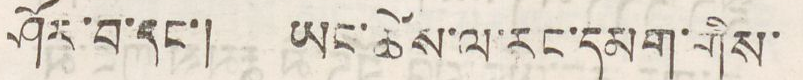ཤོར་བ་དང་། ཡང་ཚེས་ལ་རང་དམག་གིས་
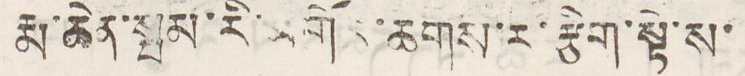རྨ་ཆེན་སྦམ་རི་མགོར་ཆགས་ར་རྩིག་སྟེ་ས་
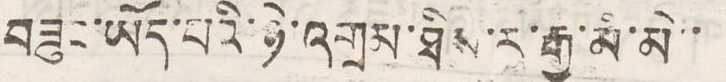བཟུང་ཡོད་པའི་ཉེ་འགྲམ་ཐིས་ར་རྒྱ་མི་མེ་
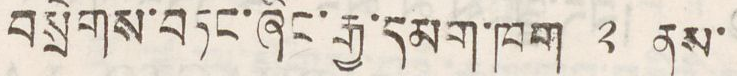བསྲེགས་བཏང་ཞིང་རྒྱ་དམག་ཁག་ ༢ ནས་
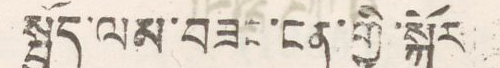སྤྱོད་ལམ་བཟང་ངན་གྱི་སྐོར
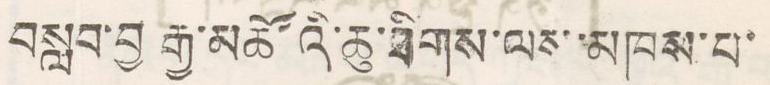བསླབ་བྱ རྒྱ་མཚོའི་ཆུ་ཐིགས་ལས་མཁས་པ་
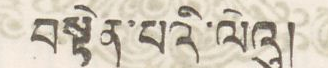བསྟེན་པའི་ལེའུ།
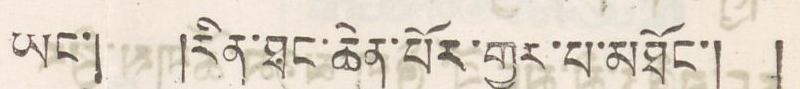ཡང་། །རིན་ཐང་ཆེན་པོར་གྱུར་པ་མཐོང་། །
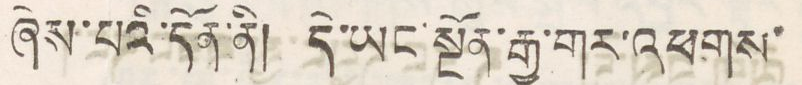ཞེས་པའི་དོན་ནི། དེ་ཡང་སྔོན་རྒྱ་གར་འཕགས་
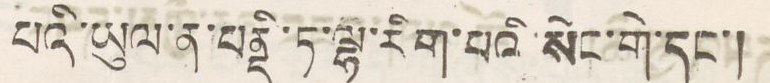པའི་ཡུལ་ན་པནྡི་ཏ་ལྷ་རིག་པའི་སེང་གེ་དང་།
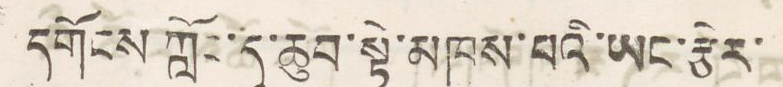དགོངས་ཀློང་དུ་ཆུབ་སྟེ་མཁས་པའི་ཡང་རྩེར་
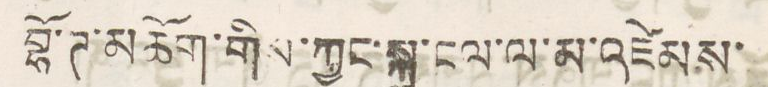བྷོ་ཊ་མཆོག་གིས་ཀྱང་སྐུ་ངལ་ལ་མ་འཛེམས་
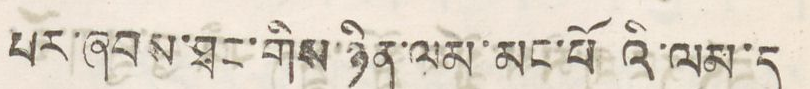པར་ཞབས་ཐང་གིས་ཉིན་ལམ་མང་པོ འི་ལམ་དུ
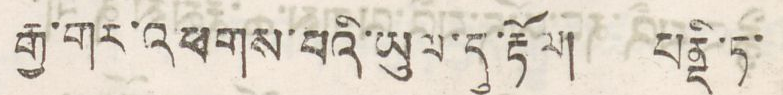རྒྱ་གར་འཕགས་པའི་ཡུལ་དུ་རྟོལ། པནྡི་ཏ་
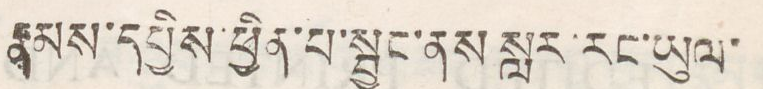རྣམས་དཔྱིས་ཕྱིན་པ་སྦྱང་ནས་སླར་རང་ཡུལ་
